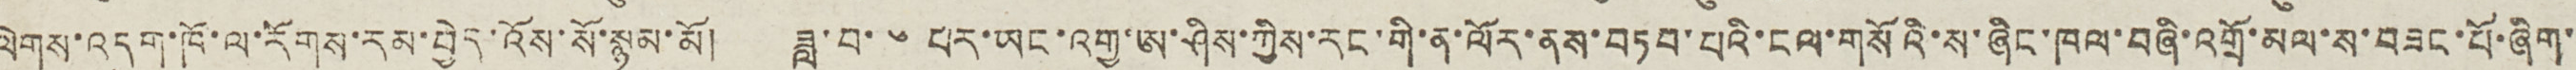ལེགས་འདུག་ཁོ་ལ་རོགས་རམ་བྱེད་འོས་སོ་སྙམ་མོ། ཟླ་བ་ ༦ པར་ཡང་འགྱ་ཨ་ཤིས་ཀྱིས་རང་གི་ན་ལོར་ནས་བཏབ་པའི་ངལ་གསོའི་ས་ཞིང་ཁལ་བཞི་འགྲོ་མལ་ས་བཟང་པོ་ཞིག་
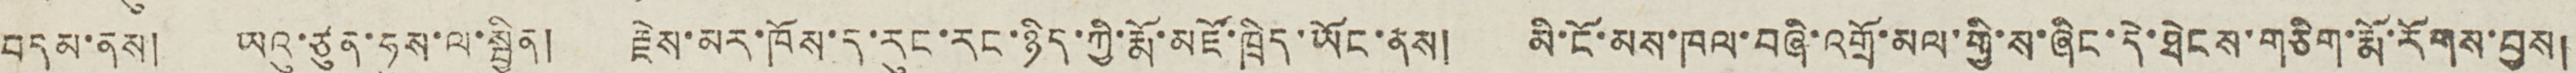བདམ་ནས། ཡའུ་ཙུན་ཧུས་ལ་སྦྱིན། རྗེས་མར་ཁོས་ད་རུང་རང་ཉིད་ཀྱི་རྨོ་མཛོ་ཁྲིད་ཡོང་ནས། མི་ངོ་མས་ཁལ་བཞི་འགྲོ་མལ་གྱི་ས་ཞིང་དེ་ཐེངས་གཅིག་རྨོ་རོགས་བྱས།
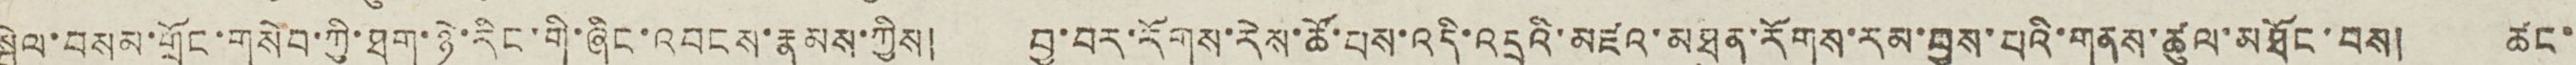སྦེལ་བསལ་གྲོང་གསེབ་ཀྱི་ཐག་ཉེ་རིང་གི་ཞིང་འབངས་རྣམས་ཀྱིས། བྱ་བར་རོགས་རེས་ཚོ་བས་འདི་འདྲའི་མཛའ་མཐུན་རོགས་རམ་བྱས་པའི་གནས་ཚུལ་མཐོང་བས། ཚང་
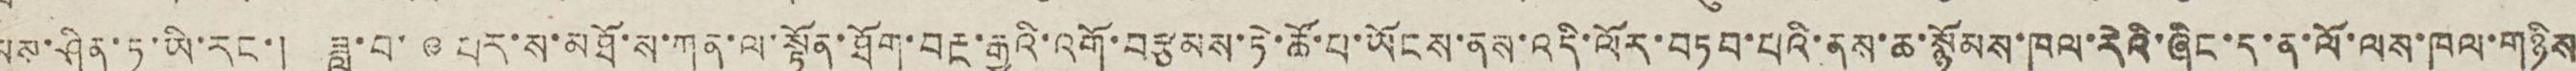མས་ཤིན་ཏུ་ཡི་རང་། ཟླ་བ་ ༩ པར་ས་མཐོ་ས་ཀུན་ལ་སྟོན་ཐོག་བརྔ་རྒྱུའི་འགོ་བརྩམས་ཏེ་ཚོ་པ་ཡོངས་ནས་འདི་ལོར་བཏབ་པའི་ནས་ཆ་སྙོམས་ཁལ་རེའི་ཞིང་དུ་ན་ལོ་ལས་ཁལ་གཉིས
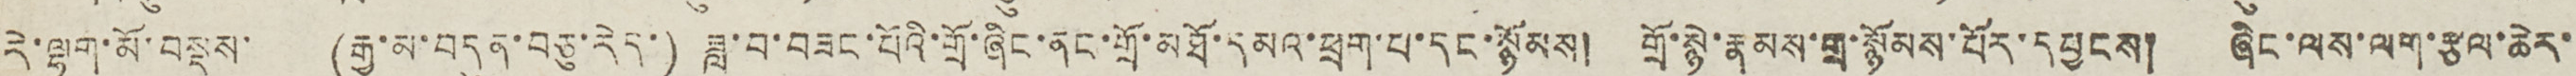དེ་ལྷག་མོ་བསྡུས་ (རྒྱ་མ་བདུན་བཅུ་རེད་) ཟླ་བ་བཟང་པོའི་གྲོ་ཞིང་ནང་གྲོ་མཐོ་དམའ་ཕྲག་པ་དང་སྙོམས། གྲོ་སྙེ་རྣམས་གྲ་སྙོམས་པོར་དཔྱངས། ཞིང་ལས་ལག་རྩལ་ཆེར་
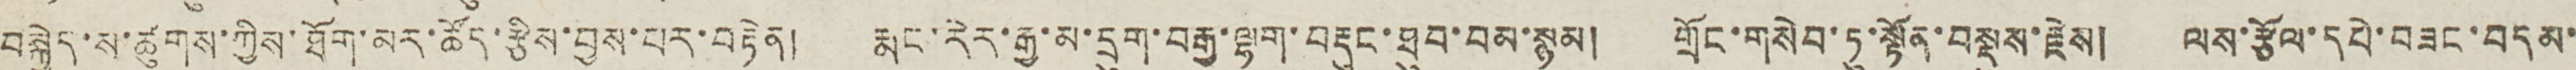བསྐྱེད་ས་ཚུགས་ཀྱིས་ཐོག་མར་ཚོད་རྩིས་བྱས་པར་བརྟེན། རྨང་རེར་རྒྱ་མ་དྲུག་བརྒྱ་ལྷག་བརྡུང་ཐུབ་བམ་སྙམ། གྲོང་གསེབ་ཏུ་སྟོན་བསྡུས་རྗེས། ལས་རྩོལ་དཔེ་བཟང་བདམ་
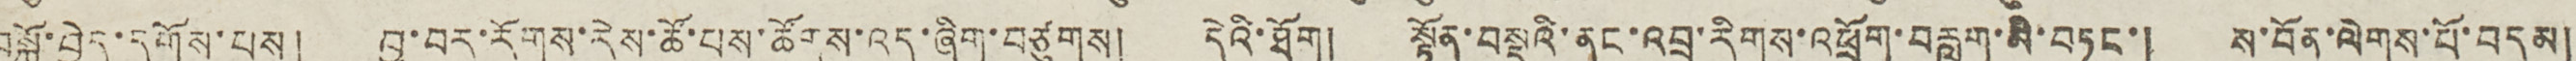བསྐོ་བྱེད་དགོས་པས། བྱ་བར་རོགས་རེས་ཚོ་པས་ཚོགས་འདུ་ཞིག་བཙུགས། དེའི་ཐོག།། སྟོན་བསྡུའི་ནང་འབྲུ་རིགས་འཕྲོག་བརླག་མི་བཏང་། ས་བོན་ལེགས་པོ་བདམ།
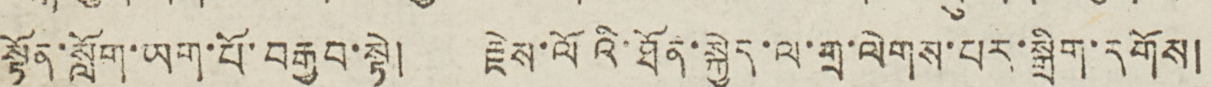སྟོན་སློག་ཡག་པོ་བརྒྱབ་སྟེ། རྗེས་ལོའི་ཐོན་སྐྱེད་ལ་གྲ་ལེགས་པར་སྒྲིག་དགོས། ཤིན་ཧྭ་ཧྲེ་ཐོ་འགོད་པ་ ཡང་ཧྲམ་མིང་ ཕན་ཤེས་ཚེ་རིང་ནས།
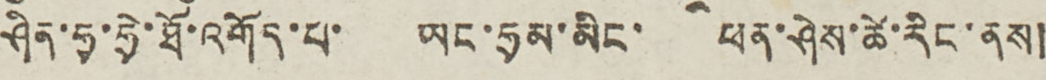ཤིན་ཧྭ་ཧྲེ་ཐོ་འགོད་པ་ ཡང་ཧྲམ་མིང་ ཕན་ཤེས་ཚེ་རིང་ནས།
